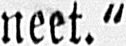neet."
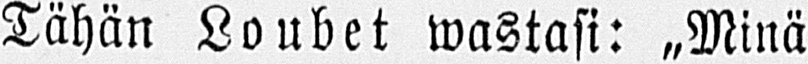Tähän Loubet wastasi: „Minä
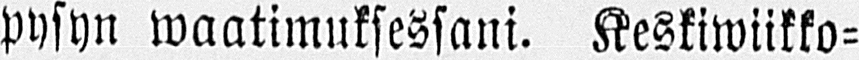pysyn waatimuksessani. Keskiwiikko-
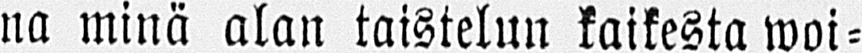na minä alan taistelun kaikesta woi-
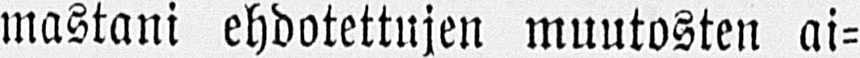mastani ehdotettujen muutosten ai-
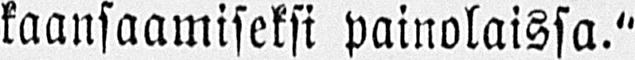kaansaamiseksi painolaissa."
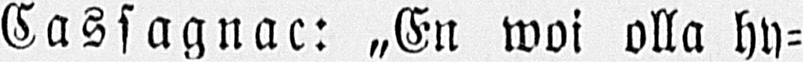Cassagnac: „En woi olla hy-
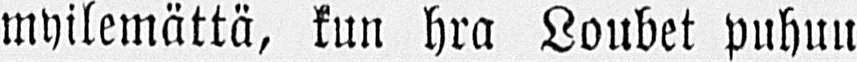myilemättä, kuu hra Loubet puhuu
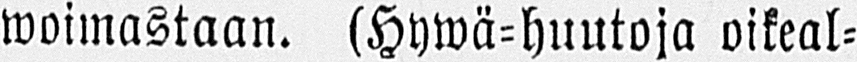woimastaan. (Hywä-huutoja oikeal-
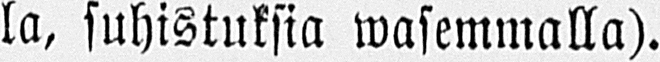la, suhistuksia wasemmalla).
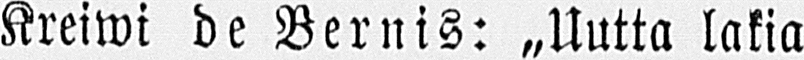Kreiwi de Bernis: „Uutta lakia
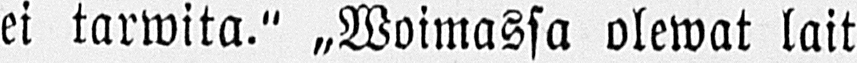ei tarwita." „Woimassa olewat lait
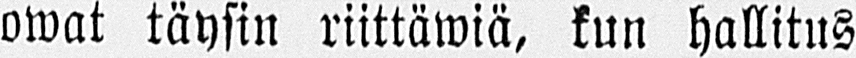owat täysin riittäwiä, kuu hallitus
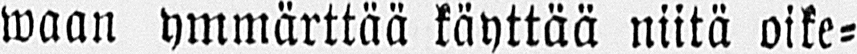waan ymmärttää käyttää niitä oike-
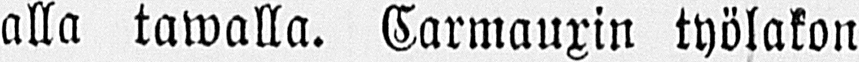alla tawalla. Carmauxin työlakon
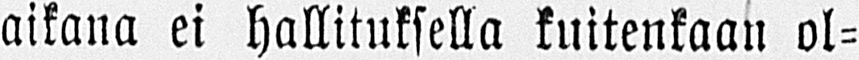aikana ei hallituksella kuitenkaan ol-
